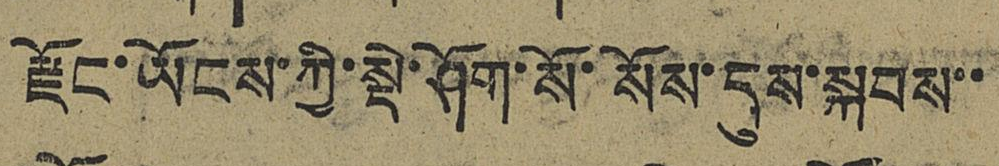རྫོང་ཡོངས་ཀྱི་སྡེ་ཤོག་སོ་སོས་དུས་སྐབས་་
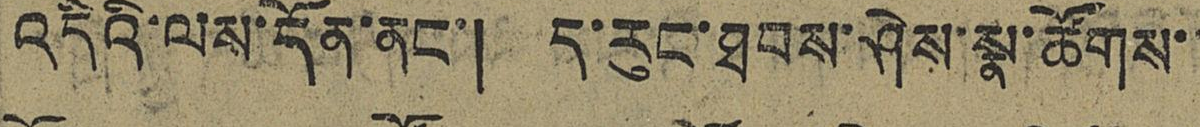འདིའི་ལས་དོན་ནང་། ད་རུང་ཐབས་ཤེས་སྣ་ཚོགས་་
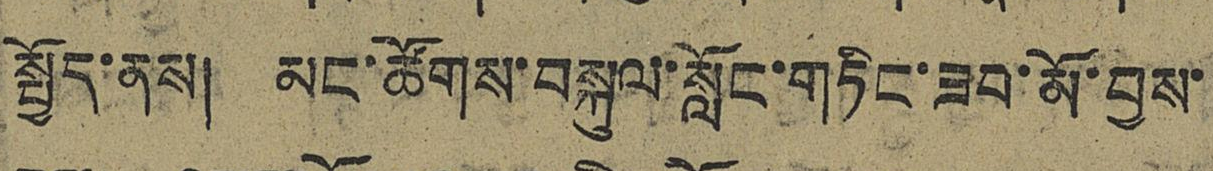སྤྱོད་ནས། མང་ཚོགས་བསྐུལ་སློང་གཏིང་ཟབ་མོ་བྱས་
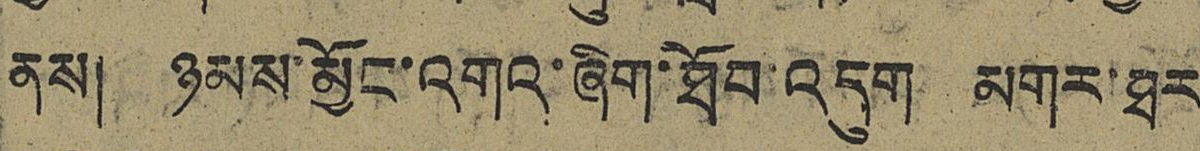ནས། ཉམས་མྱོང་འགའ་ཞིག་ཐོབ་འདུག མགར་ཐར
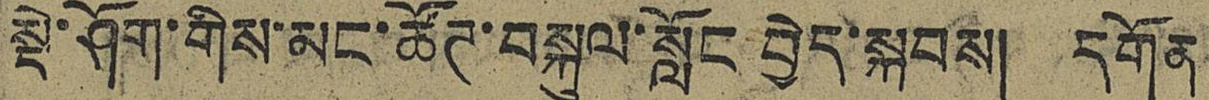སྡེ་ཤོག་གིས་མང་ཚོཊ་བསྐུལ་སློང བྱེད་སྐབས། དགོན
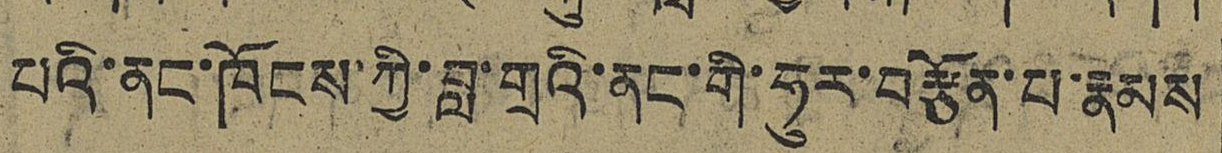པའི་ནང་ཁོངས་ཀྱི་བླ་གྲའི་ནང་གི་ཧུར་བརྩོན་པ་རྣམས
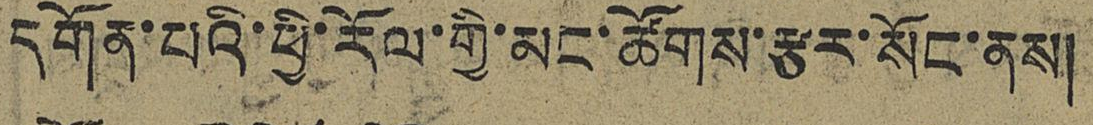དགོན་པའི་ཕྱི་རོལ་གྱི་མང་ཚོགས་རྩར་སོང་ནས།
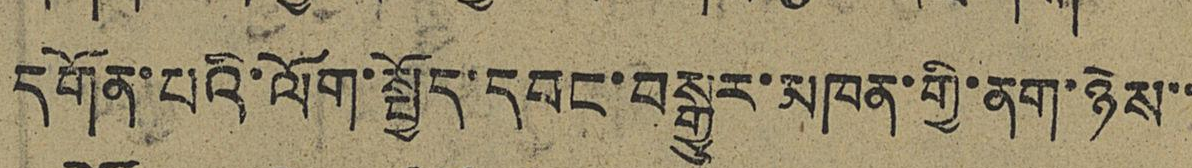དགོན་པའི་ལོག་སྤྱོད་དབང་བསྒྱུར་མཁན་གྱི་ནག་ཉེས་་
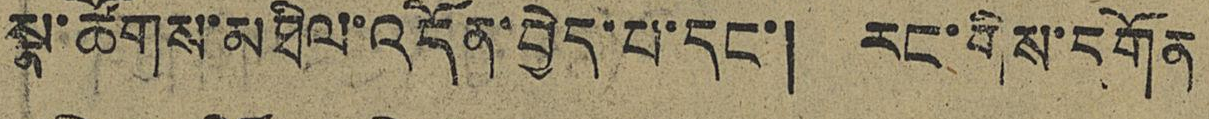སྣ་ཚོགས་མཐིལ་འདོན་བྱེད་པ་དང་། རང་གིས་དགོན
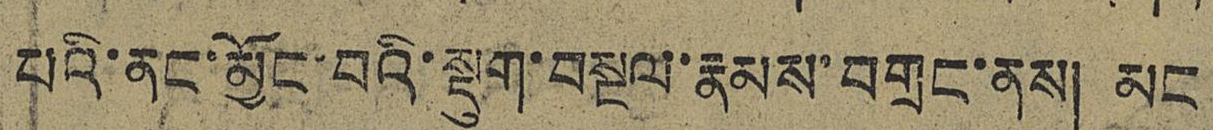པའི་ནང་མྱོང་བའི་སྡུག་བསྔལ་རྣམས་བགྲང་ནས། མང
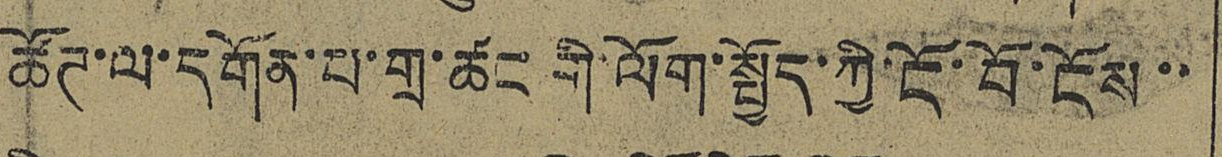ཚོཊ་ལ་དགོན་པ་གྲ་ཚང གི་ལོག་སྤྱོད་ཀྱི་ངོ་བོ་ངོས་་
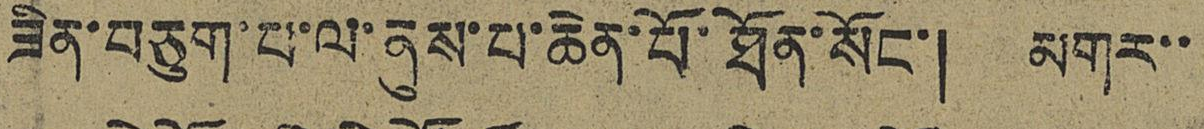ཟིན་བཅུག་པ་ལ་ནུས་པ་ཆེན་པོ་ཐོན་སོང་། མགར་་
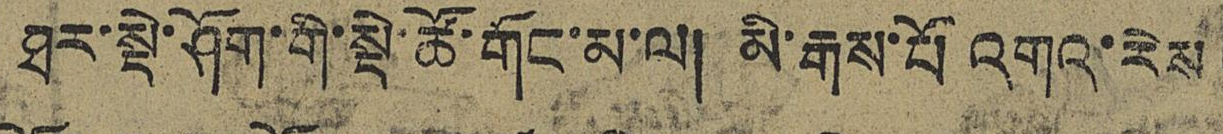ཐར་སྡེ་ཤོག་གི་སྡེ་ཚོ་གོང་མ་ལ། མི་རྒས་པོ འགའ་རེས
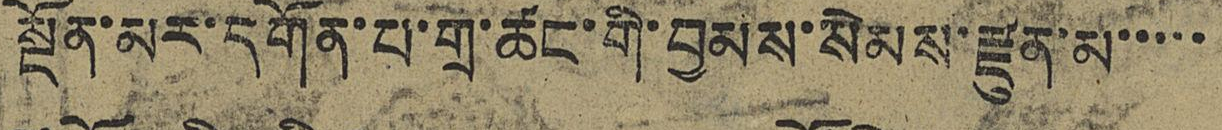སྔོན་མར་དགོན་པ་གྲོ་ཚང་གི་བྱམས་སེམས་རྫོན་མ་་་་་
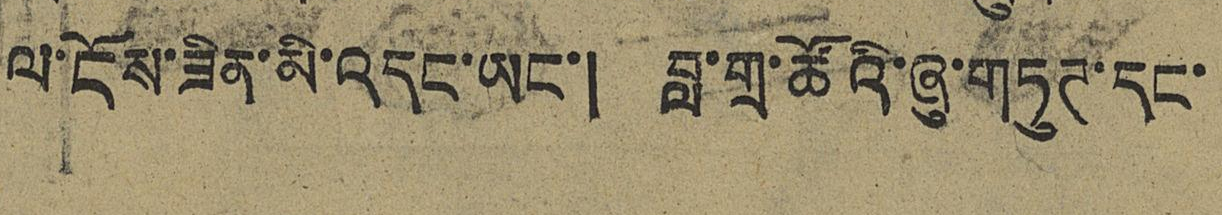ལ་ངོས་ཟིན་མི་འདང་ཡང་། བླ་གྲ་ཚོའི་ཞུ་གཏུཊ་དང་
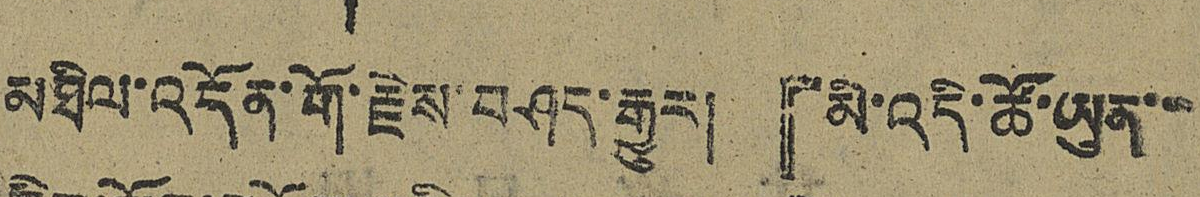མཐིལ་འདོན་གོ་རྗེས་བཤད་རྒྱུར། 『མི་འདི་ཚོ་ཡུན་་
